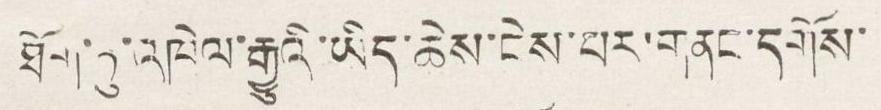ཐོག་ཏུ་འཁེལ་རྒྱུའི་ཡིད་ཆེས་ངེས་པར་གནང་དགོས་
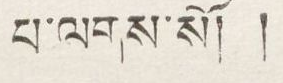པ་ལགས་སོ། །
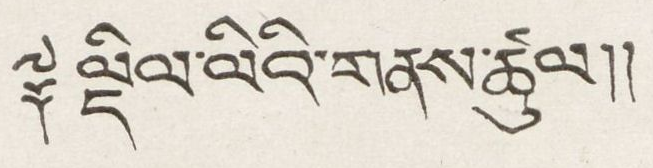༈ ལྡིལ་ལིའི་གནས་ཚུལ།།
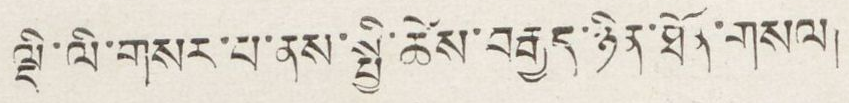ལྡི་ལི་གསར་པ་ནས་སྤྱི་ཚེས་བརྒྱད་ཉིན་ཐོན་གསལ།
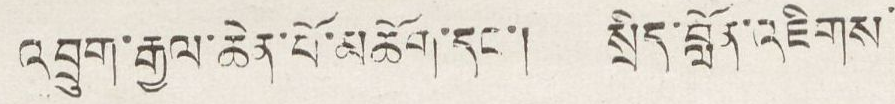འབྲུག་རྒྱལ་ཆེན་པོ་མཆོག་དང་། སྲིད་བློན་འཇིགས་
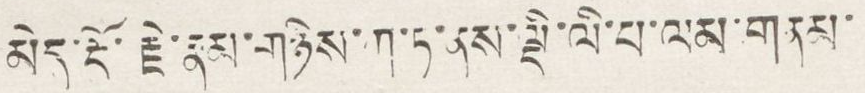མེད་རྡོ་རྗེ་རྣམ་གཉིས་ཀ་ཏ་ནས་ལྡི་ལི་པ་ལམ་གནམ་
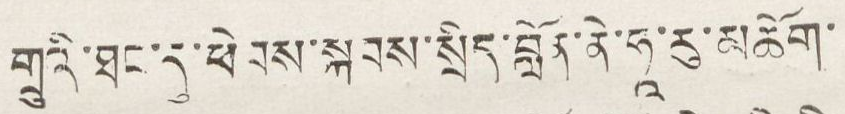གྲུའི་ཐང་དུ་ཕེབས་སྐབས་སྲིད་བློན་ནེ་ཧཱ་རུ་མཆོག་
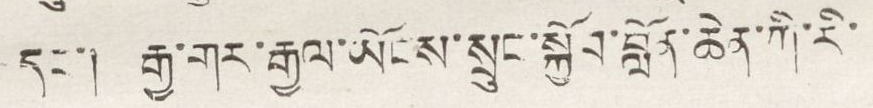དང་། རྒྱ་གར་རྒྱལ་ཡོངས་སྲུང་སྐྱོབ་བློན་ཆེན་ཀི་རི་
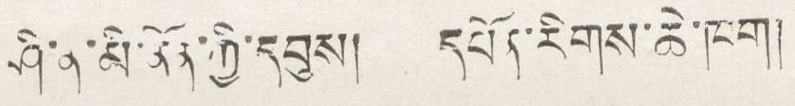ཤི་ན་མི་ནོན་ཀྱི་དབུས། དཔོན་རིགས་ཆེ་ཁག།
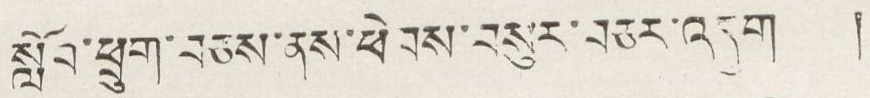སློབ་ཕྲུག་བཅས་ནས་ཕེབས་བསུར་བཅར་འདུག །
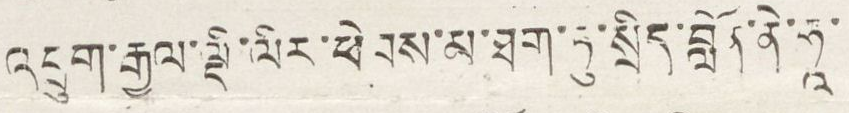འབྲུག་རྒྱལ་ལྡི་ལིར་ཕེབས་མ་ཐག་ཏུ་སྲིད་བློན་ནེ་ཧཱ་
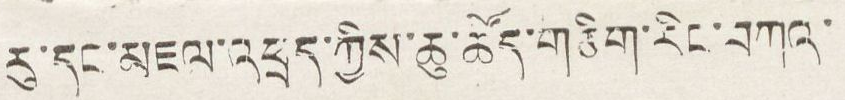རུ་དང་མཇལ་འཕྲད་ཀྱིས་ཆུ་ཚོད་གཅིག་རིང་བཀའ་
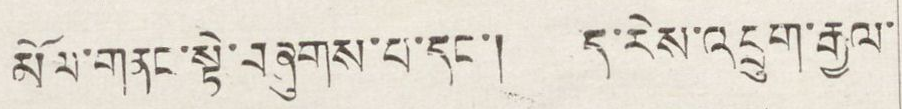མོལ་གནང་སྟེ་བཞུགས་པ་དང་། ད་རེས་འབྲུག་རྒྱལ་
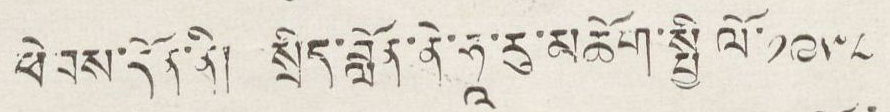ཕེབས་དོན་ནི། སྲིད་བློན་ནེ་ཧཱ་རུ་མཆོག་སྤྱི་ལོ་ ༡༩༥༨
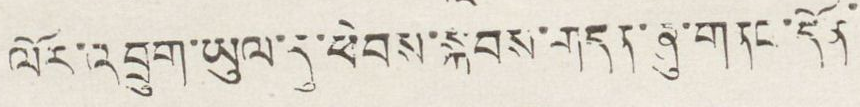ལོར་འབྲུག་ཡུལ་དུ་ཕེབས་སྐབས་གདན་ཞུ་གནང་དོན་
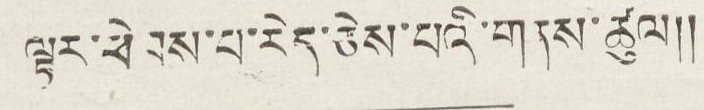ལྟར་ཕེབས་པ་རེད་ཅེས་པའི་གནས་ཚུལ།།
